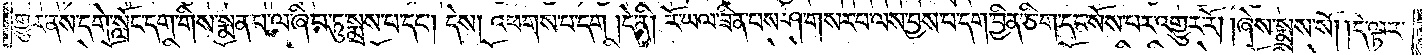གྱུར་ནས་དགེ་སློང་དག་གིས་སྨན་པ་ལ་ཞིབ་ཏུ་སྨྲས་པ་དང༌། དེས། འཕགས་པ་དག །དེ་ནི། རོ་ཡལ་ཟིན་པས་ཤ་གསར་པ་ལས་བྱས་པ་དག་བྱིན་ཅིག་དང་སོས་པར་འགྱུར་རོ། །ཞེས་སྨྲས་སོ། །དེ་ལྟར་
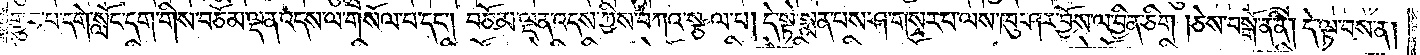གྱུར་པ་དགེ་སློང་དག་གིས་བཅོམ་ལྡན་འདས་ལ་གསོལ་པ་དང༌། བཅོམ་ལྡན་འདས་ཀྱིས་བཀའ་སྩལ་པ། དེ་སྟེ་སྨན་པས་ཤ་གསར་པ་ལས་ཁུ་ཤར་བྱོས་ལ་བྱིན་ཅིག །ཅེས་བསྒོ་ན་ནི། དེ་ལྟ་བས་ན།
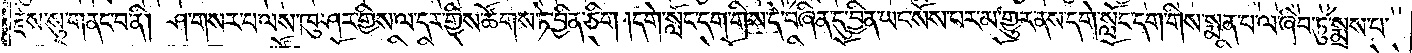རྗེས་སུ་གནང་བ་ནི། ཤ་གསར་པ་ལས་ཁུ་ཤར་གྱིས་ལ་དར་གྱིས་ཚོགས་ཏེ་བྱིན་ཅིག །དགེ་སློང་དག་གིས་དེ་བཞིན་དུ་བྱིན་ཡང་སོས་པར་མ་གྱུར་ནས་དགེ་སློང་དག་གིས་སྨན་པ་ལ་ཞིབ་ཏུ་སྨྲས་པ་
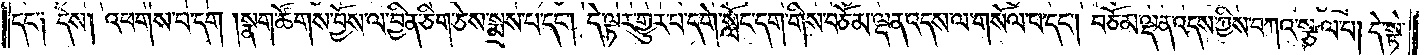དང་༑ དེས། འཕགས་པ་དག །སྣག་ཚོགས་བྱོས་ལ་བྱིན་ཅིག་ཅེས་སྨྲས་པ་དང༌། དེ་ལྟར་གྱུར་པ་དགེ་སློང་དག་གིས་བཅོམ་ལྡན་འདས་ལ་གསོལ་བ་དང༌། བཅོམ་ལྡན་འདས་ཀྱིས་བཀའ་སྩལ་པ། དེ་སྟེ་
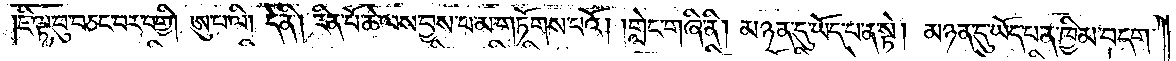ཇི་ལྟ་བུ་བཅང་བར་བགྱི། ཨུ་པ་ལི། དེ་ནི། རིན་པོ་ཆེ་ལས་བྱས་པ་མ་གཏོགས་པའོ། །གླེང་གཞི་ནི། མཉན་དུ་ཡོད་པ་ན་སྟེ། མཉན་དུ་ཡོད་པ་ན་ཁྱིམ་བདག་
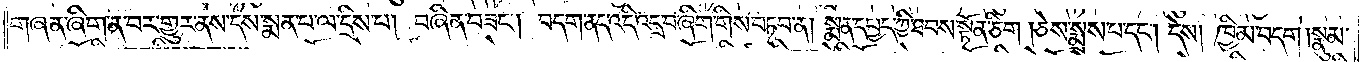གཞན་ཞིག་ན་བར་གྱུར་ནས་དེས་སྨན་པ་ལ་དྲིས་པ། བཞིན་བཟང༌། བདག་ནད་འདི་འདྲ་བ་ཞིག་གིས་བཏབ་ན། སྨན་དཔྱད་ཀྱི་ཐབས་སྟོན་ཅིག །ཅེས་སྨྲས་པ་དང༌། དེས། ཁྱིམ་བདག །སྣུམ་
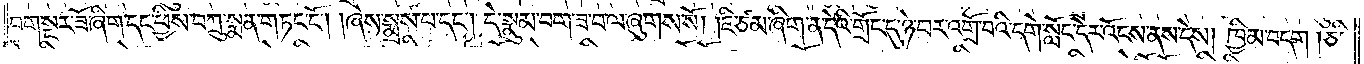བག་སྔར་ཟོ་ཞིག་དང་ཕྱིས་བཀྲུ་སྨན་གཏང་ངོ༌། །ཞེས་སྨྲས་པ་དང༌། དེ་སྣུམ་བག་ཟ་བ་ལ་ཞུགས་སོ། །ཇི་ཙམ་ཞིག་ན་དེའི་གྲོང་དུ་ཉེ་བར་འགྲོ་བའི་དགེ་སློང་དེར་འོངས་ནས་དེས། ཁྱིམ་བདག །ཅི་
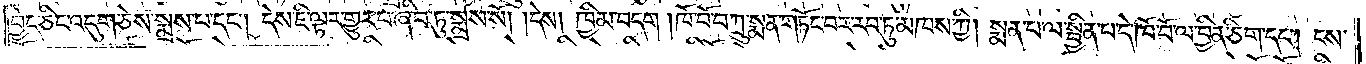བྱེད་ཅིང་འདུག་ཅེས་སྨྲས་པ་དང༌། དེས་ཇི་ལྟར་གྱུར་པ་ཞིབ་ཏུ་སྨྲས་སོ། །དེས། ཁྱིམ་བདག །ཁོ་བོ་བཀྲུ་སྨན་གཏོང་བར་རབ་ཏུ་མཁས་ཀྱི། སྨན་པ་ལ་སྦྱིན་པ་དེ་ཁོ་བོ་ལ་བྱིན་ཅིག་དང༌། ངས་
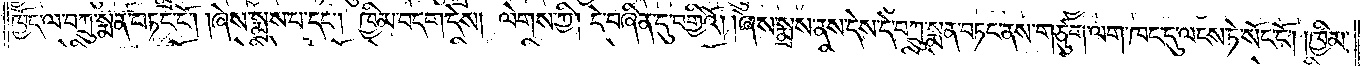ཁྱོད་ལ་བཀྲུ་སྨན་བཏང་ངོ༌། །ཞེས་སྨྲས་པ་དང༌། ཁྱིམ་བདག་དེས། ལེགས་ཀྱི། དེ་བཞིན་དུ་བགྱིའོ། །ཞེས་སྨྲས་ནས་དེས་དེ་བཀྲུ་སྨན་བཏང་ནས་གཙུག་ལག་ཁང་དུ་ལངས་ཏེ་སོང་ངོ༌། །ཁྱིམ་
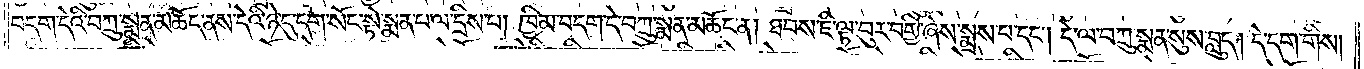བདག་དེའི་བཀྲུ་སྨན་མཆོད་ནས་དེའི་ཉེ་དུ་དག་སོང་སྟེ་སྨན་པ་ལ་དྲིས་པ། ཁྱིམ་བདག་དེ་བཀྲུ་སྨན་མཆོང་ན། ཐབས་ཇི་ལྟ་བུར་བགྱི་ཞེས་སྨྲས་པ་དང༌། དེ་ལ་བཀྲུ་སྨན་སུས་བླུད། དེ་དག་གིས།
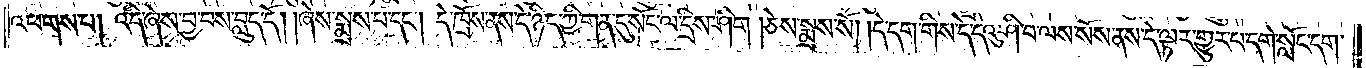འཕགས་པ། འདི་ཞེས་བྱ་བས་བླུད་དོ། །ཞེས་སྨྲས་པ་དང༌། དེ་ཁྲོས་ནས་དེ་ཉིད་ཀྱི་གན་དུ་སོང་ལ་དྲིས་ཤིག །ཅེས་སྨྲས་སོ། །དེ་དག་གིས་དེ་དེའུ་ཤི་བ་ལས་སོས་ནས་དེ་ལྟར་གྱུར་པ་དགེ་སློང་དག་
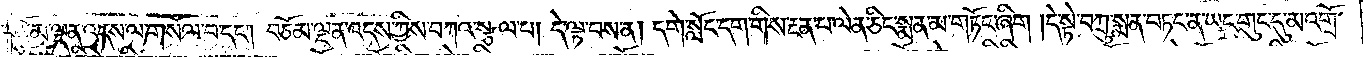གིས་བཅོམ་ལྡན་འདས་ལ་གསོལ་བ་དང༌། བཅོམ་ལྡན་འདས་ཀྱིས་བཀའ་སྩལ་པ། དེ་ལྟ་བས་ན། དགེ་སློང་དག་གིས་རྔན་པ་ལེན་ཅིང་སྨན་མ་གཏོང་ཞིག །དེ་སྟེ་བཀྲུ་སྨན་བཏང་ན་ཡང་གུང་དུ་མ་འགྲོ་
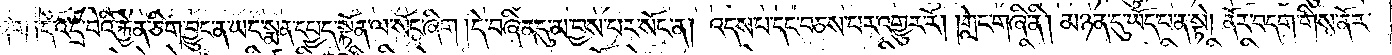ཞིག །དེ་འདྲ་བའི་རྐྱེན་ཅིག་བྱུང་ན་ཡང་སྨན་དཔྱད་སྟོན་ལ་སོང་ཞིག །དེ་བཞིན་དུ་མ་བྱས་པར་སོང་ན། འདས་པ་དང་བཅས་པར་འགྱུར་རོ། །གླེང་གཞི་ནི། མཉན་དུ་ཡོད་པ་ན་སྟེ། ནོར་བདག་གིས་ནོར་
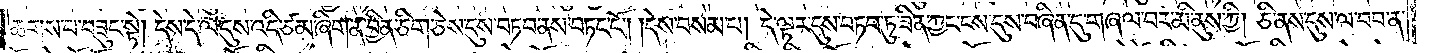ཆགས་པ་བཟུང་སྟེ། དེས་དེ་ལ་དུས་འདི་ཙམ་ཞིག་ན་བྱིན་ཅིག་ཅེས་དུས་བཏབ་ནས་བཏང་ངོ༌། །དེས་བསམ་པ། དེ་ལྟར་དུས་བཏང་ཏུ་ཟིན་ཀྱང་ངས་དུས་བཞིན་དུ་གཞལ་བར་མི་ནུས་ཀྱི། ཅི་ནས་དུས་ལ་བབ་ན་
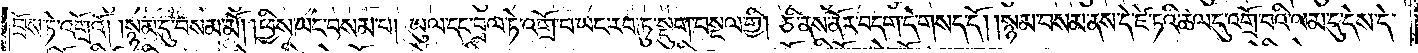བྲོས་ཏེ་འགྲོའོ། །སྙམ་དུ་བསམ་མོ། །ཕྱིས་ཡང་བསམ་པ། ཡུལ་དང་བྲལ་ཏེ་འགྲོ་བ་ཡང་རབ་ཏུ་སྡུག་བསྔལ་གྱི། ཅི་ནས་ནོར་བདག་དེ་གསད་དོ། །སྙམ་བསམ་ནས་དེ་ཛེ་ཏའི་ཚལ་དུ་འགྲོ་བའི་ལམ་དུ་དེས་དེ་
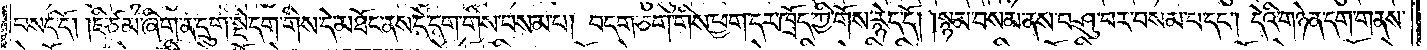བསད་དོ། །ཇི་ཙམ་ཞིག་ན་དྲུག་སྡེ་དག་གིས་དེ་མཐོང་ནས་དེ་དག་གིས་བསམ་པ། བདག་ཅག་གིས་ཕྱག་དར་ཁྲོད་ཀྱི་གོས་རྙེད་དོ། །སྙམ་བསམ་ནས་བཤུ་བར་བསམ་པ་དང༌། དེའི་གཉེན་དག་གནས་
